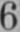6
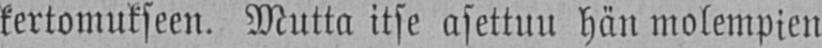kertomukseen. Mutta itse asettuu hän molempien
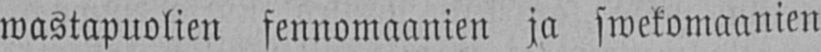Wastapuolien fennomaanien ja swekomaanien
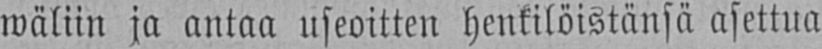wäliin ja antaa useoitten henkilöistänsä asettua
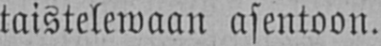taistelewaan asentoon.
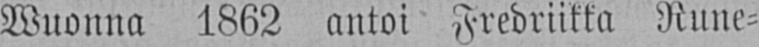Wuonna 1862 antoi Fredriikka Rune-
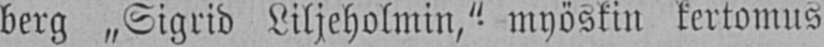berg „Sigrid Liljeholmin," myöskin kertomus
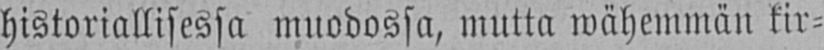historiallisessa muodossa, mutta wähemmän kir-
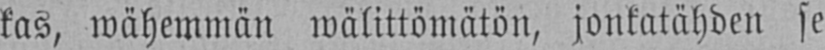kas, wähemmän wälittömätön, jonkatähden se
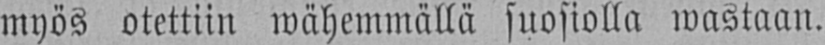myös otettiin wähemmällä suosiolla wastaan.
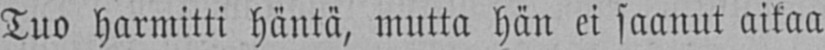Tuo harmitti häntä, mutta hän ei saanut aikaa
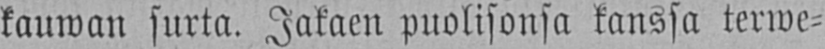kauwan surta. Jakaen puolisonsa kanssa terwe-
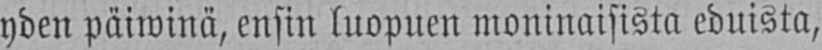yden päiwinä, ensin luopuen moninaisista eduista,
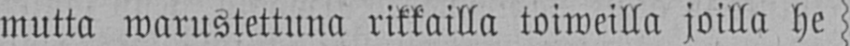mutta warustettuna rikkailla toiweilla joilla he-
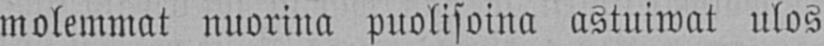molemmat nuorina puolisoina astuiwat ulos
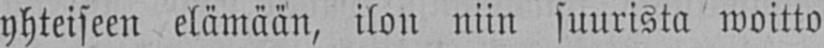yhteiseen elämään, ilon niin suurista woitto
